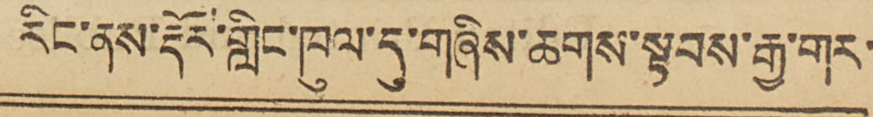རིང་ནས་རྡོར་གླིང་ཁུལ་དུ་གཞིས་ཆགས་སྟབས་རྒྱ་གར་
